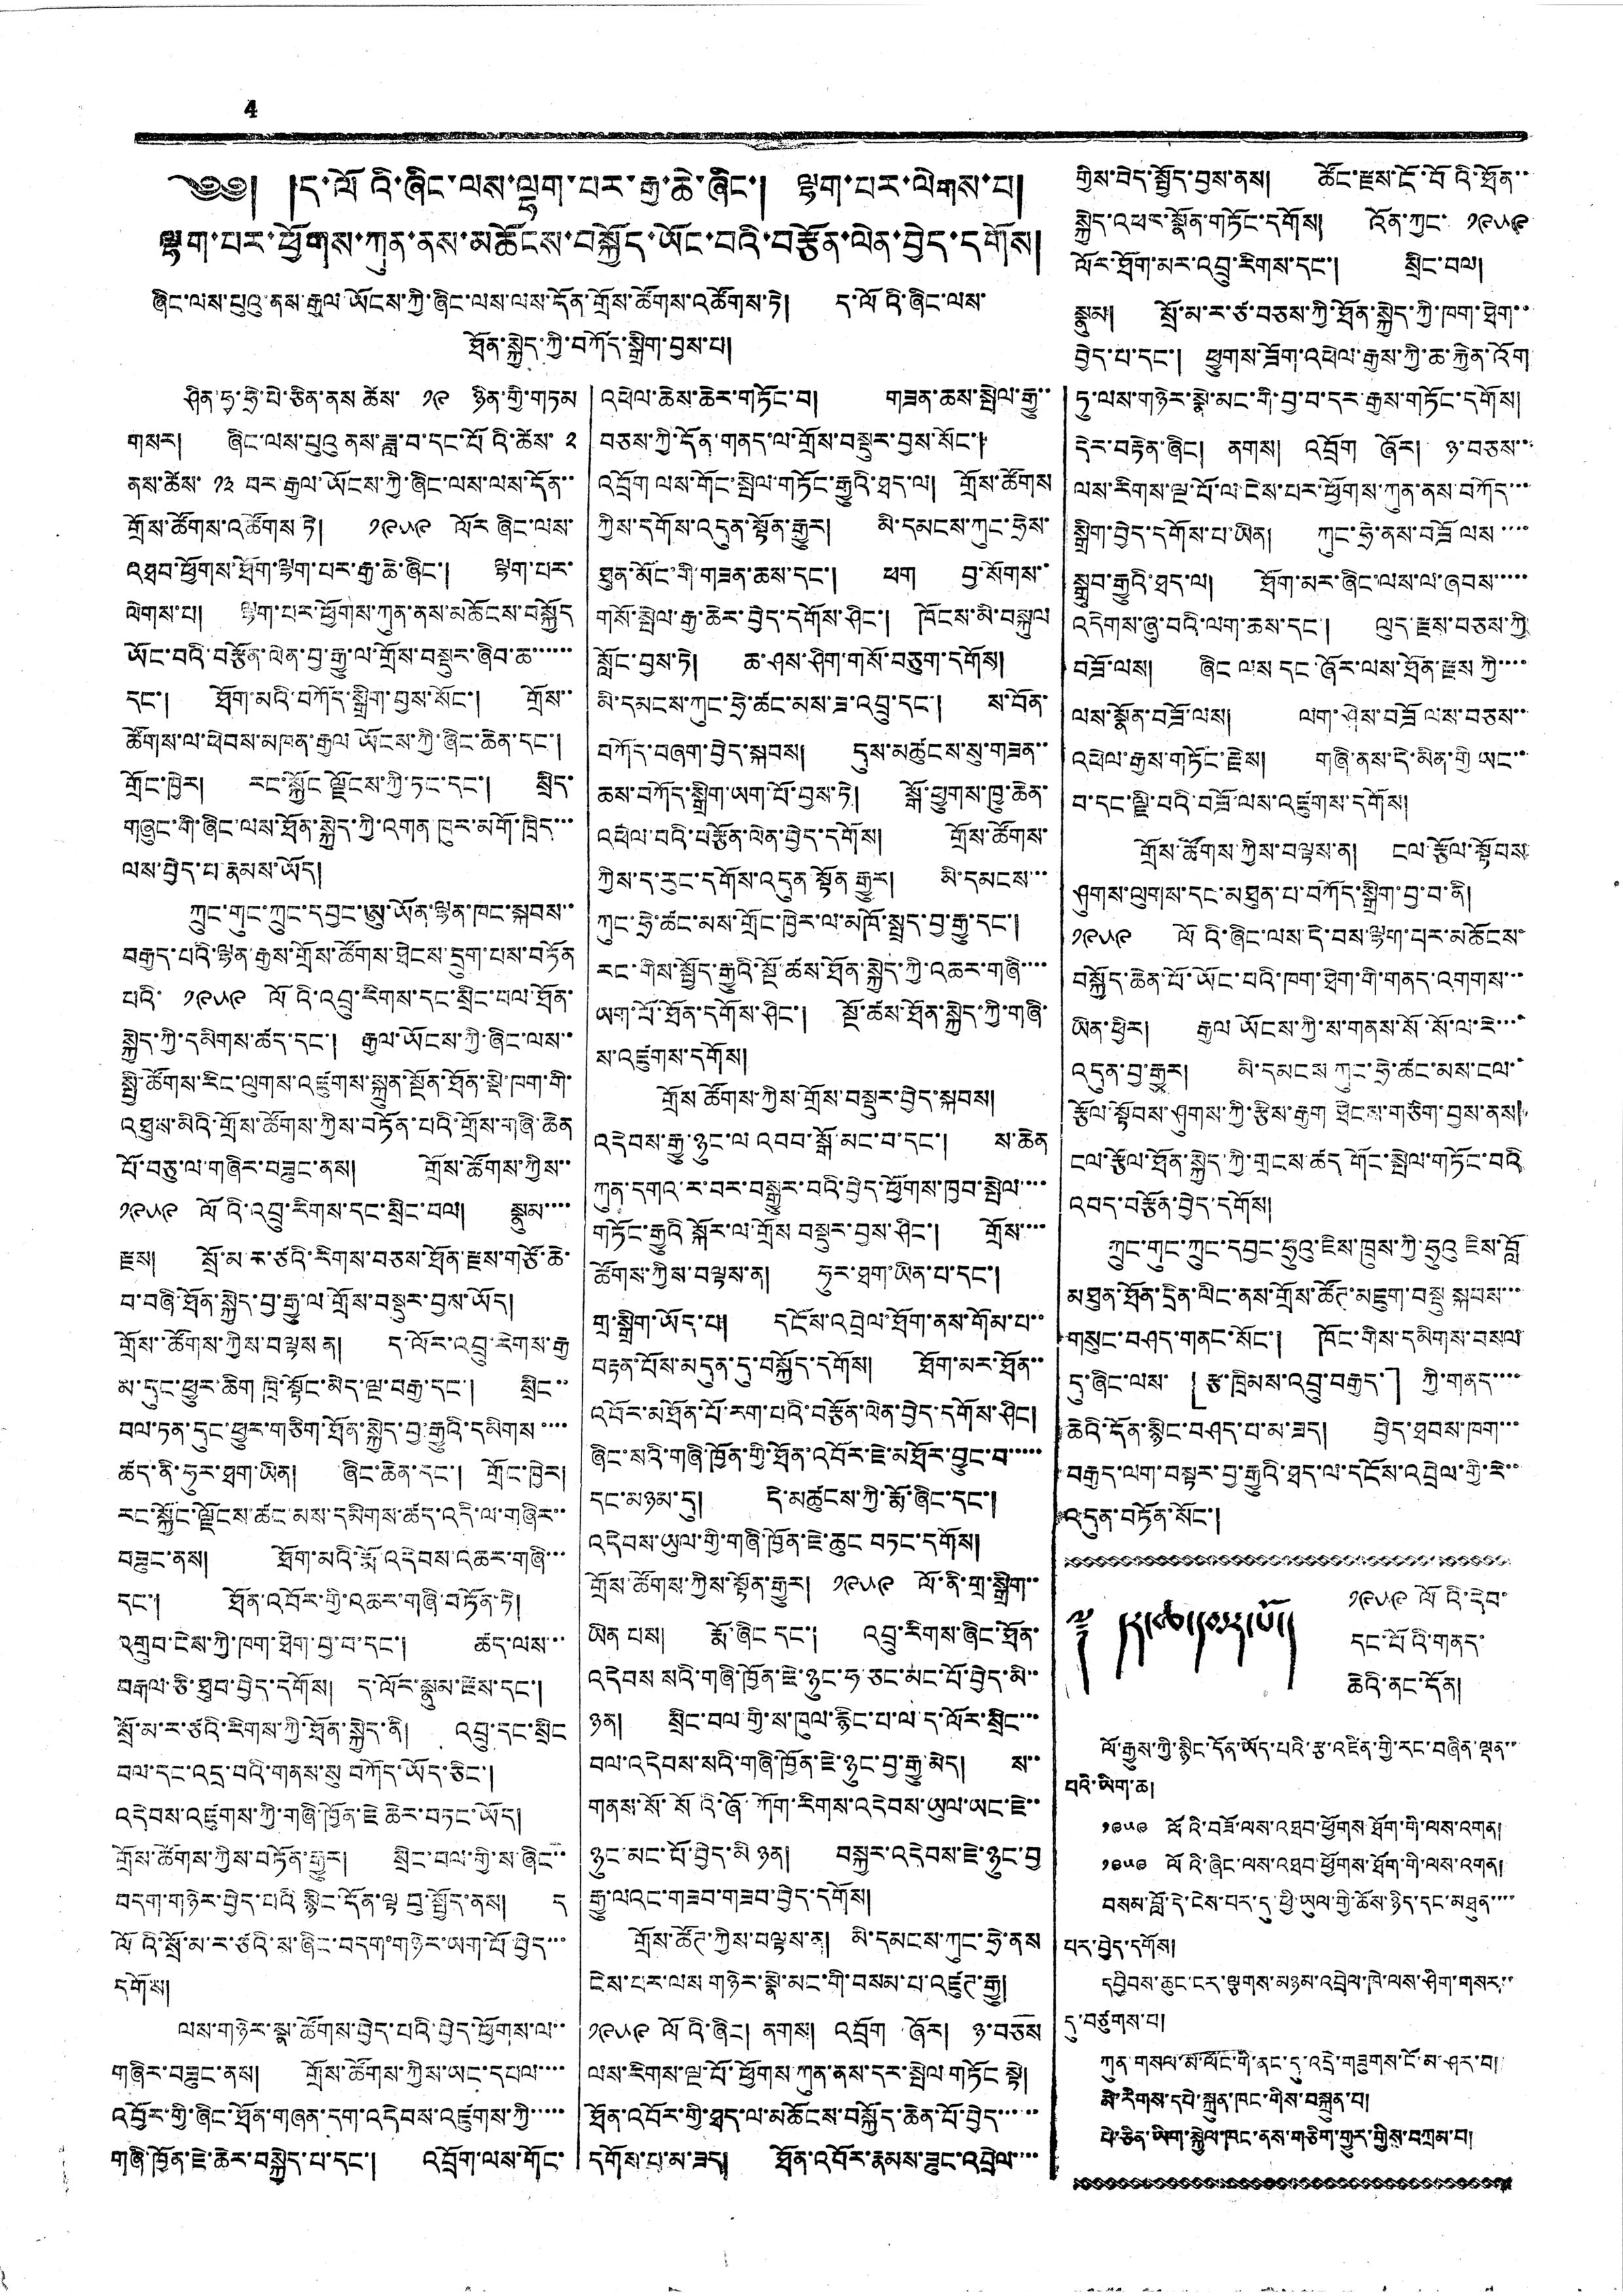4
༄༅། །ད་ལོའི་ཞིང་ལས་ལྷག་པར་རྒྱ་ཆེ་ཞིང་། ལྷག་པར་ལེགས་པ།
ལྷག་པར་ཕྱོགས་ཀུན་ནས་མཆོངས་བསྐྱོད་ཡོང་བའི་བརྩོན་ལེན་བྱེད་དགོས།
ཞིང་ལས་པུའུ་ནས་རྒྱལ་ཡོངས་ཀྱི་ཞིང་ལས་ལས་དོན་གྲོས་ཚོགས་འཚོགས་ཏེ། ད་ལོའི་ཞིང་ལས་
ཐོན་སྐྱེད་ཀྱི་བཀོད་སྒྲིག་བྱས་པ།
ཤིན་ཧྭ་ཧྲེ་པེ་ཅིན་ནས ཚེས་ ༡༩ ཉིན་གྱི་གཏམ
གསར། ཞིང་ལས་པུའུ ནས་ཟླ་བ་དང་པོའི་ཚེས་ ༢
ནས་ཚེས་ ༡༣ བར་རྒྱལ་ཡོངས་ཀྱི་ཞིང་ལས་ལས་དོན་་
གྲོས་ཚོགས་འཚོགས ཏེ། ༡༩༥༩ ལོར ཞིང་ལས་
འཐབ་ཕྱོགས་ཐོག་ལྷག་པར་རྒྱ་ཆེ་ཞིང་། ལྷག་པར་
ལེགས་པ། ལྷག་པར་ཕྱོགས་ཀུན་ནས་མཆོངས་བསྐྱོད
ཡོང་བའི་བརྩོན་ལེན་བྱ་རྒྱུ་ལ་གྲོས་བསྡུར་ཞིབ་ཆ་་་་་་
དང་། ཐོག་མའི་བཀོད་སྒྲིག་བྱས་སོང་། གྲོས་་
ཚོགས་ལ་ཕེབས་མཁན་རྒྱལ ཡོངས་ཀྱི་ཞིང་ཆེན་དང་།
གྲོང་ཁྱེར། རང་སྐྱོང ལྗོངས་ཀྱི་ཏང་དང་། སྲིད་
གཞུང་གི་ཞིང་ལས་ཐོན་སྐྱེད་ཀྱི་འགན་ཁུར་མགོ་ཁྲིད་་་
ལས་བྱེད་པ་རྣམས་ཡོད།
ཀྲུང་གུང་ཀྲུང་དབྱང་ཨུ་ཡོན་ལྷན་ཁང་སྐབས་་
བརྒྱད་པའི་ལྷན་རྒྱས་གྲོས་ཚོགས་ཐེངས་དྲུག་པས་བཏོན
པའི་ ༡༩༥༩ ལོའི་འབྲུ་རིགས་དང་སྲིང་བལ་ཐོན་
སྐྱེད་ཀྱི་དམིགས་ཚད་དང་། རྒྱལ་ཡོངས་ཀྱི་ཞིང་ལས་་
སྤྱི་ཚོགས་རིང་ལུགས་འཛུགས་སྐྲུན་སྔོན་ཐོན་སྡེ་ཁག་གི་
འཐུས་མིའི་གྲོས་ཚོགས་ཀྱིས་བཏོན་པའི་གྲོས་གཞི་ཆེན
པོ་བཅུ་ལ་གཞིར་བཟུང་ནས། གྲོས་ཚོགས་ཀྱིས་་
༡༩༥༩ ལོའི་འབྲུ་རིགས་དང་སྲིང་བལ། སྣུམ་་་་
རྫས། སྲོ་མ ར་ཙའི་རིགས་བཅས་ཐོན་རྫས་གཙོ་ཆེ་
བ་བཞི་ཐོན་སྐྱེད་བྱ་རྒྱུ་ལ་གྲོས་བསྡུར་བྱས་ཡོད།
གྲོས་་ཚོགས་ཀྱིས་བལྟས ན། ད་ལོར་འབྲུ་རིགས་རྒྱ
མ་དུང་ཕྱུར་ཆིག ཁྲི་སྟོང་མེད་ལྔ་བརྒྱ་དང་། སྲིང་་
བལ་ཏན་དུང་ཕྱུར་གཅིག་ཐོན་སྐྱེད་བྱ་རྒྱུའི་དམིགས་་་་
ཚད་ནི་ཧུར་ཐག་ཡིན། ཞིང་ཆེན་དང་། གྲོང་ཁྱེར།
རང་སྐྱོང་ལྗོངས་ཚང་མས་དམིགས་ཚད་འདི་ལ་གཞིར་་
བཟུང་ནས། ཐོག་མའི་རྨོ་འདེབས་འཆར་གཞི་་་
དང་། ཐོན་འབོར་གྱི་འཆར་གཞི་བཏོན་ཏེ།
འགྲུབ་ངེས་ཀྱི་ཁག་ཐེག་བྱ་བ་དང་། ཚད་ལས་་་
བརྒལ་ཅི་ཐུབ་བྱེད་དགོས། ད་ལོར་སྣུམ་རྫས་དང་།
སྲོ་མ་ར་ཙའི་རིགས་ཀྱི་ཐོན་སྐྱེད་ནི། འབྲུ་དང་སྲིང
བལ་དང་འདྲ་བའི་གནས་སུ བཀོད་ཡོད་ཅིང་།
འདེབས་འཛུགས་ཀྱི་གཞི་ཁྱོན་ཇེ ཆེར་བཏང་ཡོད།
གྲོས་ཚོགས་ཀྱིས་བཏོན་རྒྱུར། སྲིང་བལ་གྱི་ས་ཞིང་་
བདག་གཉེར་བྱེད་པའི སྙིང་དོན་ལྟ བུ་སྤྱོད་ནས། ད
ལོའི་སྲོ་མ་ར་ཙའི་ས་ཞིང་བདག་གཉེར་ཡག་པོ་བྱེད་་་
དགོས།
ལས་གཉེར་སྣ་ཚོགས་བྱེད་པའི་བྱེད་ཕྱོགས་ལ་་
གཞིར་བཟུང་ནས། གྲོས་ཚོགས་ཀྱིས་ཡང་དཔལ་་་་
འབྱོར་གྱི་ཞིང་ཐོན་གཞན་དག་འདེབས་འཛུགས་ཀྱི་་་་་
གཞི་ཁྱོན་ཇེ་ཆེར་བསྐྱེད་པ་དང་། འབྲོག་ལས་གོང་
འཕེལ་ཆེས་ཆེར་གཏོང་བ། གཟན་ཆས་སྤེལ་རྒྱུ་་
བཅས་ཀྱི་དོན་གནད་ལ་གྲོས་བསྡུར་བྱས་སོང་།
འབྲོག ལས་གོང་སྤེལ་གཏོང་རྒྱུའི་ཐད་ལ། གྲོས་ཚོགས
ཀྱིས་དགོས་འདུན་སྟོན་རྒྱུར། མི་དམངས་ཀུང་ཧྲེས་
ཐུན་མོང་གི་གཟན་ཆས་དང་། ཕག བྱ་སོགས་་
གསོ་སྤེལ་རྒྱ་ཆེར་བྱེད་དགོས་ཤིང་། ཁོངས་མི་བསྐུལ
སློང་བྱས་ཏེ། ཆ་ཤས་ཤིག་གསོ་བཅུག་དགོས།
མི་དམངས་ཀུང་ཧྲེ་ཚང་མས་ཟ་འབྲུ་དང་། ས་བོན་
བཀོད་བཞག་བྱེད་སྐབས། དུས་མཚུངས་སུ་གཟན་་
ཆས་བཀོད་སྒྲིག་ཡག་པོ་བྱས་ཏེ། སྒོ་ཕྱུགས་ཁྱུ་ཆེན་
འཕེལ་བའི་བརྩོན་ལེན་བྱེད་དགོས། གྲོས་ཚོགས་
ཀྱིས་ད་རུང་དགོས་འདུན་སྟོན རྒྱུར། མི་དམངས་་་
ཀུང་ཧྲེ་ཚང་མས་གྲོང་ཁྱེར་ལ་མཁོ་སྤྲད་བྱ་རྒྱུ་དང་།
རང་གིས་སྤྱོད་རྒྱུའི་སྔོ་ཚས་ཐོན་སྐྱེད་ཀྱི་འཆར་གཞི་་་་
ཡག་པོ་ཐོན་དགོས་ཤིང་། སྔོ་ཚས་ཐོན་སྐྱེད་ཀྱི་གཞི་
ས་འཛུགས་དགོས།
གྲོས ཚོགས་ཀྱིས་གྲོས་བསྡུར་བྱེད་སྐབས།
འདེབས་རྒྱུ་ཉུང་ལ འབབ་སྒོ་མང་བ་དང་། ས་ཆེན
ཀུན་དགའ་ར་བར་བསྒྱུར་བའི་བྱེད་ཕྱོགས་ཁྱབ་སྤེལ་་་་
གཏོང་རྒྱུའི སྐོར་ལ་གྲོས བསྡུར་བྱས་ཤིང་། གྲོས་་་་
ཚོགས་ཀྱིས་བལྟས་ན། ཧུར་ཐག་ཡིན་པ་དང་།
གྲ་སྒྲིག་ཡོད་པ། དངོས་འབྲེལ་ཐོག་ནས་གོམ་པ་་
བརྟན་པོས་མདུན་དུ་བསྐྱོད་དགོས། ཐོག་མར་ཐོན་་
འབོར་མཐོན་པོ་རག་པའི་བརྩོན་ལེན་བྱེད་དགོས་ཤིང།
ཞིང་སའི་གཞི་ཁྱོན་གྱི་ཐོན་འབོར་ཇེ་མཐོར་བྱུང་བ་་་་་
དང་མཉམ་དུ། དེ་མཚུངས་ཀྱི་རྨོ་ཞིང་དང་།
འདེབས་ཡུལ་གྱི་གཞི་ཁྱོན་ཇེ་ཆུང བཏང་དགོས།
གྲོས་ཚོགས་ཀྱིས་སྟོན་རྒྱུར། ༡༩༥༩ ལོ་ནི་གྲ་སྒྲིག་་
ཡིན པས། རྨོ་ཞིང དང་། འབྲུ་རིགས་ཞིང་ཐོན་
འདེབས སའི་གཞི་ཁྱོན་ཇེ་ཉུང་ཧ་ཅང་མང་པོ་བྱེད་མི་་
ཉན། སྲིང་བལ་གྱི་ས་ཁུལ་རྙིང་པ་ལ ད་ལོར་སྲིང་་་
བལ་འདེབས་སའི་གཞི་ཁྱོན་ཇེ་ཉུང་བྱ་རྒྱུ་མེད། ས་་
གནས་སོ་སོའི་ཞོ་ཀོག་རིགས་འདེབས་ཡུལ་ཡང་ཇེ་་
ཉུང་མང་པོ་བྱེད་མི ཉན། བསྐྱར་འདེབས་ཇེ་ཉུང་བྱ
རྒྱུ་ལའང་གཟབ་གཟབ་བྱེད་དགོས།
གྲོས་ཚོཊ་ཀྱིས་བལྟས་ན། མི་དམངས་ཀུང་ཧྲེ་ནས
ངེས་པར་ལས གཉེར་སྣེ་མང་གི་བསམ་པ་འཛུཊ་རྒྱུ།
༡༩༥༩ ལོའི་ཞིང། ནགས། འབྲོག ཞོར། ཉ་བཅས
ལས་རིགས་ལྔ་པོ་ཕྱོགས་ཀུན་ནས་དར་སྤེལ གཏོང སྟེ།
ཐོན་འབོར་གྱི་ཐད་ལ་མཆོངས་བསྐྱོད་ཆེན་པོ་བྱེད་་་་་་
དགོས་པ་མ་ཟད། ཐོན་འབོར་རྣམས་ཟུང་འབྲེལ་་་་
གྱིས་བེད་སྤྱོད་བྱས་ནས། ཚོང་རྫས་ངོ་བོའི་ཐོན་་
སྐྱེད་འཕར་སྣོན་གཏོང་དགོས། འོན་ཀྱང་ ༡༩༥༩
ལོར་ཐོག་མར་འབྲུ་རིགས་དང་། སྲིང་བལ།
སྣུམ། སྲོ་མ་ར་ཙ་བཅས་ཀྱི་ཐོན་སྐྱེད་ཀྱི་ཁག་ཐེག་་
བྱེད་པ་དང་། ཕྱུགས་ཟོག་འཕེལ་རྒྱས་ཀྱི་ཆ་རྐྱེན་འོག
ཏུ་ལས་གཉེར་སྣེ་མང་གི་བྱ་བ་དར་རྒྱས་གཏོང་དགོས།
དེར་བརྟེན་ཞིང། ནགས། འབྲོག ཞོར། ཉ་བཅས་་
ལས་རིགས་ལྔ་པོ་ལ་ངེས་པར་ཕྱོགས་ཀུན་ནས་བཀོད་་་
སྒྲིག་བྱེད་དགོས་པ་ཡིན། ཀུང་ཧྲེ་ནས་བཟོ ལས་་་་
སྒྲུབ་རྒྱུའི་ཐད་ལ། ཐོག་མར་ཞིང་ལས་ལ་ཞབས་་་་་
འདེགས་ཞུ་བའི་ལག་ཆས་དང་། ལུད་རྫས་བཅས་ཀྱི
བཟོ་ལས། ཞིང ལས དང་ཞོར་ལས་ཐོན་རྫས ཀྱི་་་་
ལས་སྣོན་བཟོ་ལས། ལག་ཤེས་བཟོ ལས་བཅས་་
འཕེལ་རྒྱས་གཏོང་རྗེས། གཞི་ནས་དེ་མིན་གྱི ཡང་་
བ་དང་ལྗི་བའི་བཟོ་ལས་འཛུགས་དགོས།
གྲོས་ཚོགས་ཀྱིས་བལྟས་ན། ངལ་རྩོལ་སྟོབས་
ཤུགས་ལུགས་དང་མཐུན་པ་བཀོད་སྒྲིག་བྱ་བ་ནི།
༡༩༥༩ ལོའི་ཞིང་ལས་དེ་བས་ལྷག་པར་མཆོངས་
བསྐྱོད་ཆེན་པོ་ཡོང་བའི་ཁག་ཐེག་གི་གནད་འགགས་་་
ཡིན་ཕྱིར། རྒྱལ ཡོངས་ཀྱི་ས་གནས་སོ་སོ་ལ་རེ་་་་
འདུན་བྱ་རྒྱུར། མི་དམངས ཀུང་ཧྲེ་ཚང་མས་ངལ་་
རྩོལ་སྟོབས་ཤུགས་ཀྱི་རྩིས་རྒྱག ཐེངས་གཅིག་བྱས་ནས།
ངལ་རྩོལ་ཐོན་སྐྱེད་ཀྱི་གྲངས་ཚད གོང་སྤེལ་གཏོང་བའི
འབད་བརྩོན་བྱེད་དགོས།
ཀྲུང་གུང་ཀྲུང་དབྱང་ཧྲུའུ་ཇིས་ཁྲུས་ཀྱི་ཧྲུའུ ཇིས་བློ
མཐུན་ཐོན་དྲིན་ལིང་ནས་གྲོས་ཚོཊ་མཇུག་བསྡུ སྐབས་་་
གསུང་བཤད་གནང་སོང་། ཁོང་གིས་དམིགས་བསལ
དུ་ཞིང་ལས་ 「རྩ་ཁྲིམས་འབྲུ་བརྒྱད་」 ཀྱི་གནད་་་་
ཆེའི་དོན་སྙིང་བཤད་པ་མ་ཟད། བྱེད་ཐབས་ཁག་་་
བརྒྱད་ལག་བསྟར་བྱ་རྒྱུའི་ཐད་ལ་དངོས་འབྲེལ་གྱི་རེ་་
འདུན་བཏོན་སོང་།
༈ དར་ཆ་དམར་པོ།
༡༩༥༩ ལོའི་དེབ་
དང་པོའི་གནད་
ཆེའི་ནང་དོན།
ལོ་རྒྱུས་ཀྱི་སྙིང་དོན་ཡོད་པའི་རྩ་འཛིན་གྱི་རང་བཞིན་ལྡན་་
པའི་ཡིག་ཆ།
༡༩༥༩ ལོའི་བཟོ་ལས་འཐབ་ཕྱོགས་ཐོག་གི་ལས་འགན།
༡༩༥༩ ལོའི་ཞིང་ལས་འཐབ་ཕྱོགས་ཐོག་གི་ལས་འགན།
བསམ་བློ་དེ་ངེས་བར་དུ་ཕྱི་ཡུལ་གྱི་ཆོས་ཉིད་དང་མཐུན་་་་
པར་བྱེད་དགོས།
དབྱིབས་ཆུང་ངར་ལྕགས་མཉམ་འབྲེལ་ཁེ་ལས་ཤིག་གསར་་
དུ་བཙུགས་པ།
ཀུན་གསལ་མེ་ལོང་གི་ནང་དུ་འདྲེ་གཟུགས་ངོ་མ་ཤར་བ།
མི་རིགས་དཔེ་སྐྲུན་ཁང་གིས་བསྐྲུན་པ།
པེ་ཅིན་ཡིག་སྐྱེལ་ཁང་ནས་གཅིག་གྱུར་གྱིས་བཀྲམ་པ།
